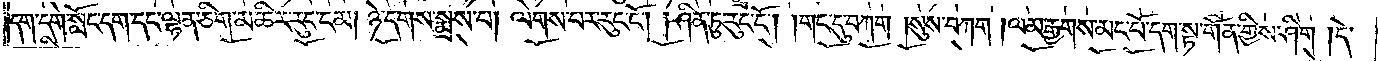དག་དགེ་སློང་དག་དང་ལྷན་ཅིག་མཆིར་རུང་ངམ། ཉེ་དགས་སྨྲས་པ། ལེགས་པར་རུང་ངོ༌། །ཤིན་ཏུ་རུང་ངོ༌། །གང་དུ་བཀག །སུས་བཀག །ལམ་རྒྱགས་མང་པོ་དག་སྟ་གོན་གྱིས་ཤིག །དེ་
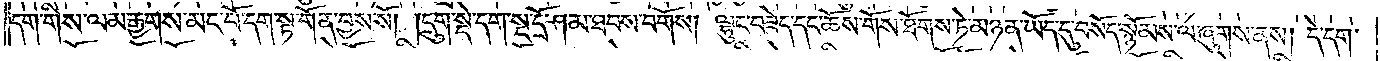དག་གིས་ལམ་རྒྱགས་མང་པོ་དག་སྟ་གོན་བྱས་སོ། །དྲུག་སྡེ་དག་སྔ་དྲོ་ཤམ་ཐབས་བགོས། ལྷུང་བཟེད་དང་ཆོས་གོས་ཐོགས་ཏེ་མཉན་ཡོད་དུ་བསོད་སྙོམས་ལ་ཞུགས་ནས། དེ་དག་
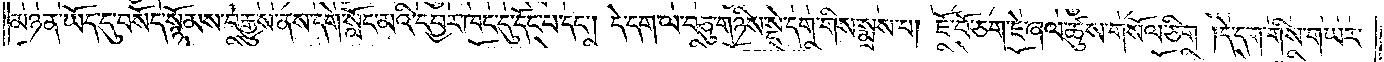མཉན་ཡོད་དུ་བསོད་སྙོམས་བརྒྱུས་ནས་དགེ་སློང་མའི་དབྱར་ཁང་དུ་དོང་པ་དང༌། དེ་དག་ལ་བཅུ་གཉིས་སྡེ་དག་གིས་སྨྲས་པ། ཇོ་བོ་ཅག་ཇེ་ཞལ་ཚུས་གསོལ་ཅིག །དེ་དག་གིས་གཡར་
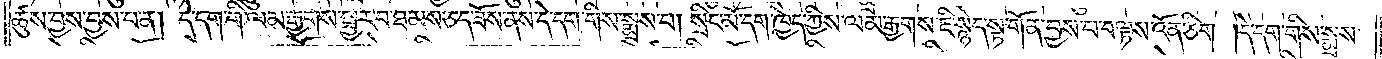ཚུས་བྱས་བྱས་པ་ན། དེ་དག་གི་ལམ་རྒྱགས་སྦྱར་བ་ཐམས་ཅད་ཟོས་ནས་དེ་དག་གིས་སྨྲས་པ། སྲིང་མོ་དག་ཁྱེད་ཀྱིས་ལམ་རྒྱགས་ཇི་སྙེད་སྟ་གོན་བྱས་པ་བལྟས་འོན་ཅིག །དེ་དག་གིས་སྨྲས་
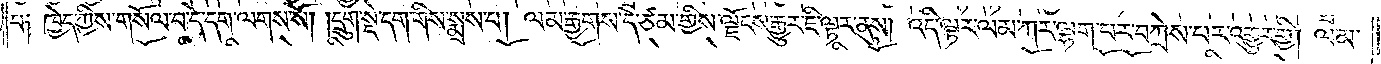པ༑ ཁྱེད་ཀྱིས་གསོལ་བ་དེ་དག་ལགས་སོ། །དྲུག་སྡེ་དག་གིས་སྨྲས་པ། ལམ་རྒྱགས་དེ་ཙམ་གྱིས་ལྗོངས་རྒྱུར་ཇི་ལྟར་ནུས། འདི་ལྟར་ལམ་ཀར་ལྷག་པར་བཀྲེས་པར་འགྱུར་གྱི། ལམ་
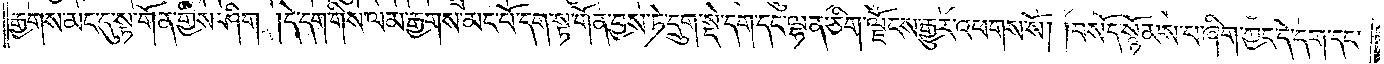རྒྱགས་མང་དུ་སྟ་གོན་གྱིས་ཤིག །དེ་དག་གིས་ལམ་རྒྱགས་མང་པོ་དག་སྟ་གོན་བྱས་ཏེ་དྲུག་སྡེ་དག་དང་ལྷན་ཅིག་ལྗོངས་རྒྱུར་འཕགས་སོ། །བསོད་སྙོམས་པ་ཞིག་ཀྱང་དེ་དག་དང་
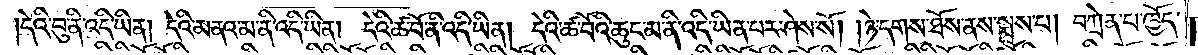དེའི་བུ་ནི་འདི་ཡིན། དེའི་མནའ་མ་ནི་འདི་ཡིན། དེའི་ཚ་བོ་ནི་འདི་ཡིན། དེའི་ཚ་བོའི་ཆུང་མ་ནི་འདི་ཡིན་པར་ཤེས་སོ། །ཉེ་དགས་ཐོས་ནས་སྨྲས་པ། བཀྲེན་པ་ཁྱོད་
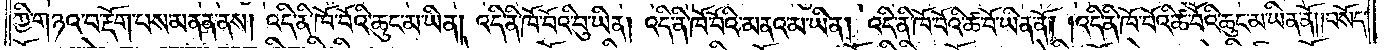ཀྱི་གཉའ་བ་རྡོག་པས་མནན་ནས། འདི་ནི་ཁོ་བོའི་ཆུང་མ་ཡིན། འདི་ནི་ཁོ་བོའི་བུ་ཡིན། འདི་ནི་ཁོ་བོའི་མནའ་མ་ཡིན། འདི་ནི་ཁོ་བོའི་ཚ་བོ་ཡིན་ནོ། །འདི་ནི་ཁོ་བོའི་ཚ་བོའི་ཆུང་མ་ཡིན་ནོ། །བསོད་
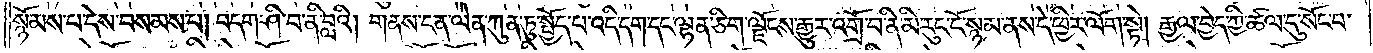སྙོམས་པ་དེས་བསམས་པ། བདག་ཤི་བ་ནི་བླའི། གནས་ངན་ལེན་ཀུན་ཏུ་སྤྱོད་པ་འདི་དག་དང་ལྷན་ཅིག་ལྗོངས་རྒྱུར་འགྲོ་བ་ནི་མི་རུང་ངོ་སྙམ་ནས་དེ་ཕྱིར་ལོག་སྟེ། རྒྱལ་བྱེད་ཀྱི་ཚལ་དུ་སོང་བ་
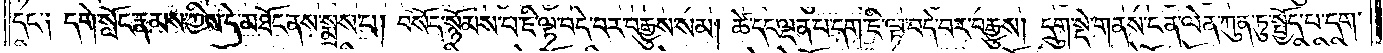དང་༑ དགེ་སློང་རྣམས་ཀྱིས་དེ་མཐོང་ནས་སྨྲས་པ། བསོད་སྙོམས་པ་ཇི་ལྟ་བདེ་བར་བརྒྱུས་སམ། ཚེ་དང་ལྡན་པ་དག་ཇི་ལྟ་བདེ་བར་བརྒྱུས། དྲུག་སྡེ་གནས་ངན་ལེན་ཀུན་ཏུ་སྤྱོད་པ་དག་
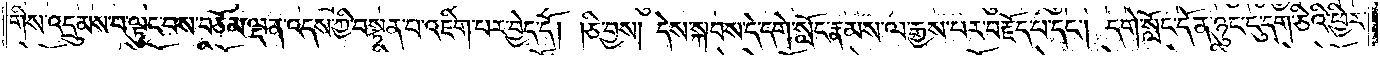གིས་འདྲུམས་པ་ལྟུང་བས་བཅོམ་ལྡན་འདས་ཀྱི་བསྟན་པ་འཇིག་པར་བྱེད་དོ། །ཅི་བྱས། དེས་སྐབས་དེ་དགེ་སློང་རྣམས་ལ་རྒྱས་པར་བརྗོད་པ་དང༌། དགེ་སློང་དོན་ཉུང་ངུ་དག་ཅིའི་ཕྱིར་
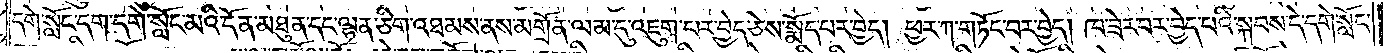དགེ་སློང་དག་དགེ་སློང་མའི་དོན་མཐུན་དང་ལྷན་ཅིག་འཐམས་ནས་མགྲོན་ལམ་དུ་འཇུག་པར་བྱེད་ཅེས་སྨོད་པར་བྱེད། ཕྱར་ཀ་གཏོང་བར་བྱེད། ཁ་ཟེར་བར་བྱེད་པའི་སྐབས་དེ་དགེ་སློང་
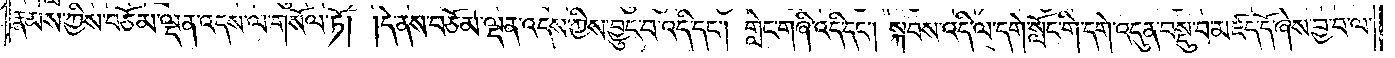རྣམས་ཀྱིས་བཅོམ་ལྡན་འདས་ལ་གསོལ་ཏོ། །དེ་ནས་བཅོམ་ལྡན་འདས་ཀྱིས་བྱུང་བ་འདི་དང༌། གླེང་གཞི་འདི་དང༌། སྐབས་འདི་ལ་དགེ་སློང་གི་དགེ་འདུན་བསྡུ་བ་མཛད་དོ་ཞེས་བྱ་བ་ལ་
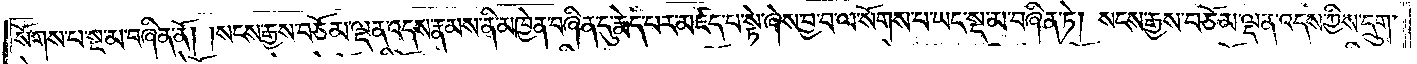སོགས་པ་སྔ་མ་བཞིན་ནོ། །སངས་རྒྱས་བཅོམ་ལྡན་འདས་རྣམས་ནི་མཁྱེན་བཞིན་དུ་རྨེད་པར་མཛད་པ་སྟེ་ཞེས་བྱ་བ་ལ་སོགས་པ་ཡང་སྔ་མ་བཞིན་ཏེ། སངས་རྒྱས་བཅོམ་ལྡན་འདས་ཀྱིས་དྲུག་
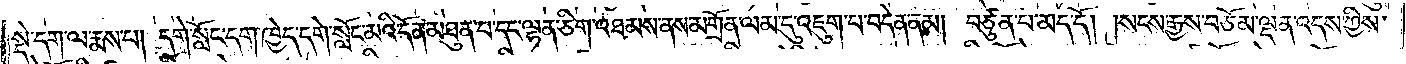སྡེ་དག་ལ་རྨས་པ། དགེ་སློང་དག་ཁྱེད་དགེ་སློང་མའི་དོན་མཐུན་པ་དང་ལྷན་ཅིག་འཐམས་ནས་མགྲོན་ལམ་དུ་འཇུག་པ་བདེན་ནམ། བཙུན་པ་མད་དོ། །སངས་རྒྱས་བཅོམ་ལྡན་འདས་ཀྱིས་
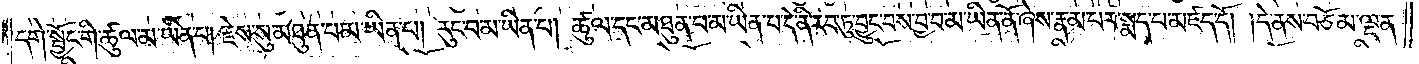དགེ་སྦྱོང་གི་ཚུལ་མ་ཡིན་པ། རྗེས་སུ་མཐུན་པ་མ་ཡིན་པ། རུང་བ་མ་ཡིན་པ། ཚུལ་དང་མཐུན་པ་མ་ཡིན་པ་དེ་ནི་རབ་ཏུ་བྱུང་བས་བྱ་བ་མ་ཡིན་ནོ་ཞེས་རྣམ་པར་སྨད་པ་མཛད་དོ། །དེ་ནས་བཅོམ་ལྡན་
